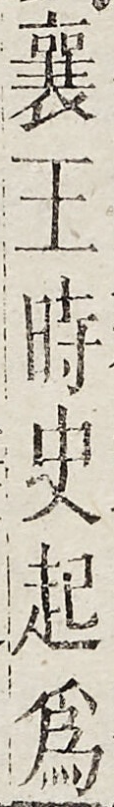襄王時史起為
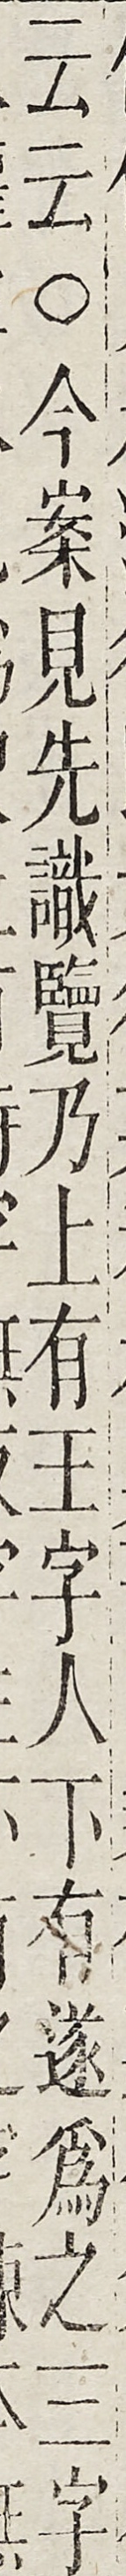云云○今案見先識覽乃上有王字人下有遂為之三字
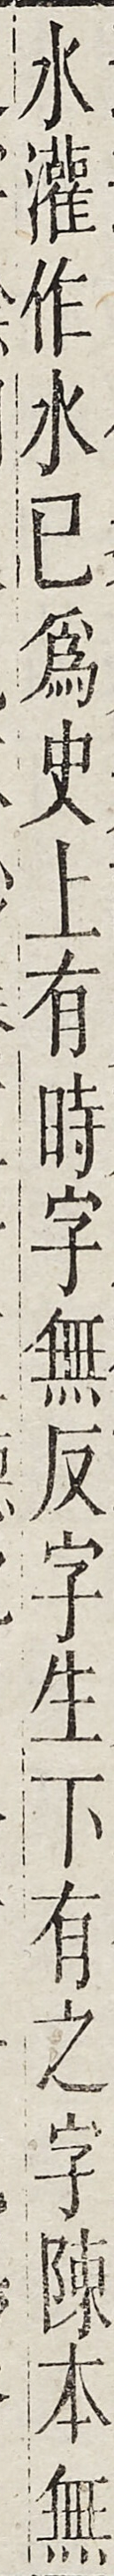水灌作水已為史上有時字無反字生下有之字疏本無
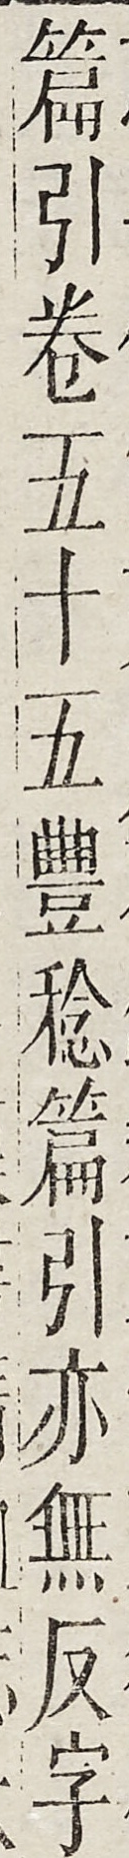篇引卷五十五豐稔篇引亦無反字
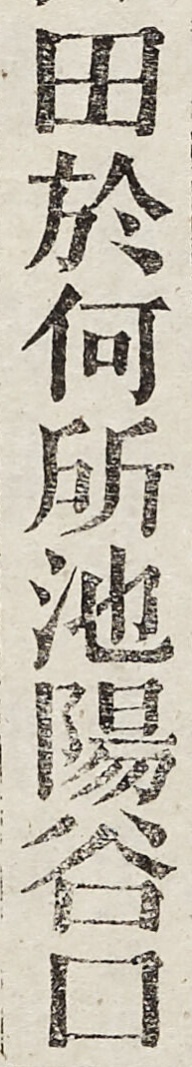田於何所池陽谷口
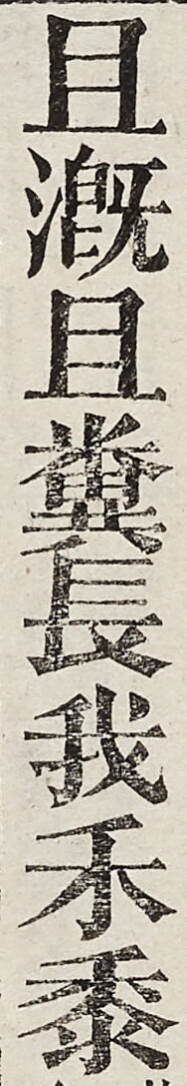且溉且糞長我禾黍
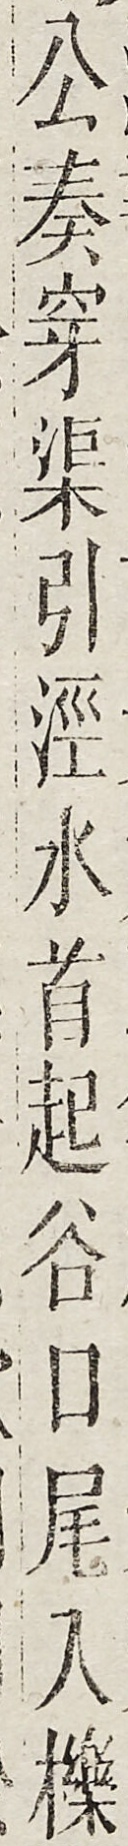公奏穿渠引涇水首起谷口尾入櫟
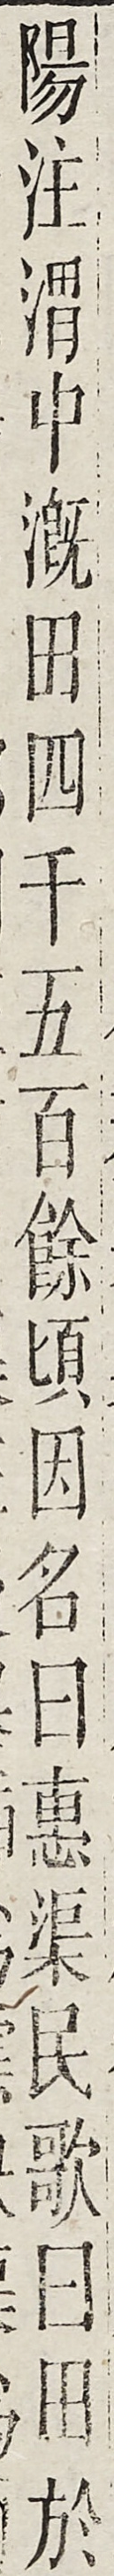陽注謂中溉田四千五百餘頃因名曰惠渠民歌曰田於
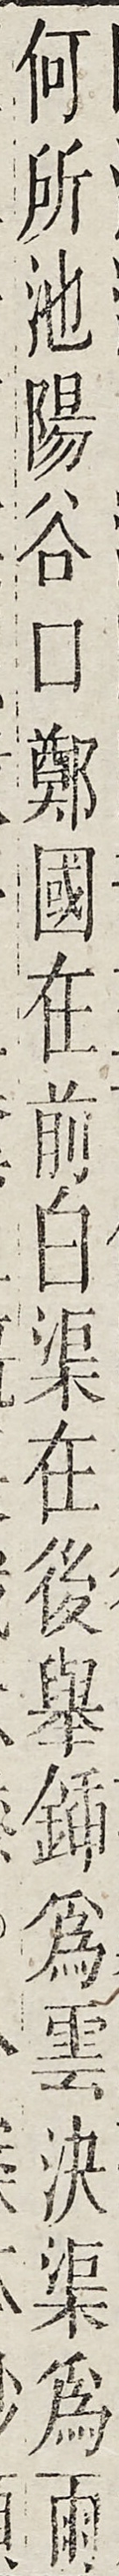何所池陽谷口鄭國在前白渠在後舉鍤為云決渠為雨
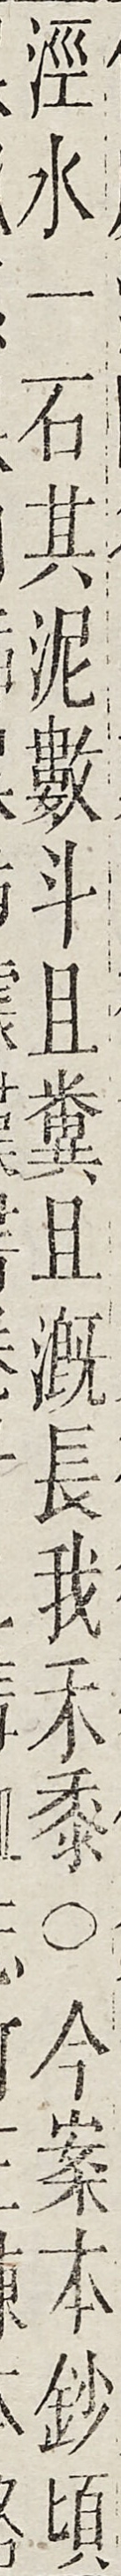涇水一石其泥數鬥且糞且溉長我禾黍○今案本鈔頃
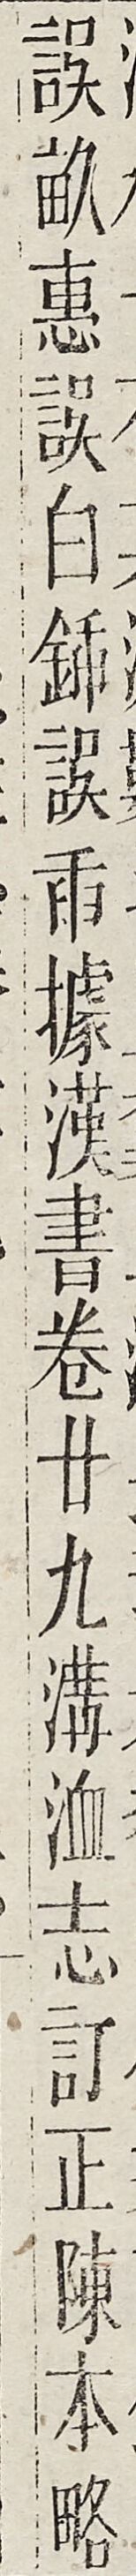誤畝惠誤白鍤誤臿據漢書卷廿九溝洫志訂正陳本略
